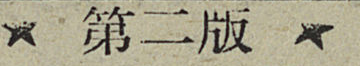★ 第二版 ★
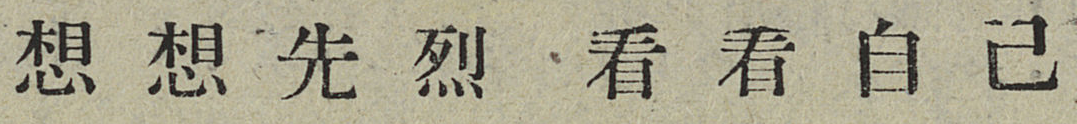想想先烈 看看自己
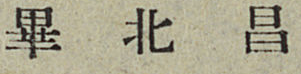畢 北 昌
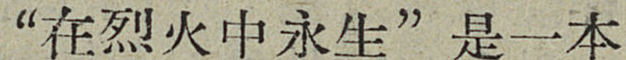“在烈火中永生”是一本
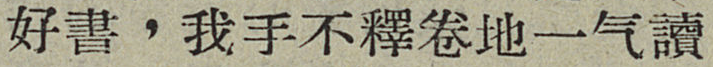好書，我手不釋卷地一气讀
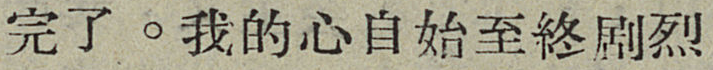完了。我的心自始至終剧烈
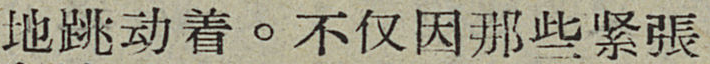地跳动着。不仅因那些紧張
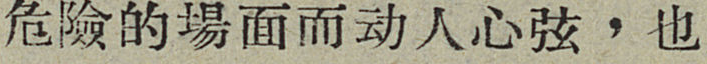危險的場面而动人心弦，也
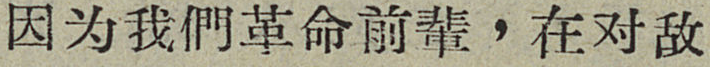因为我們革命前輩，在对敌
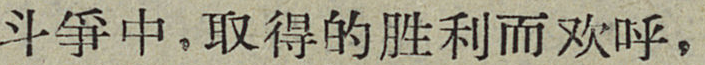斗爭中，取得的胜利而欢呼，
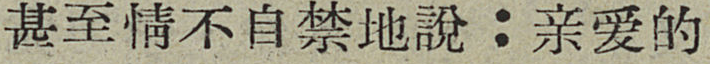甚至情不自禁地說：亲爱的
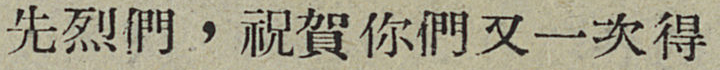先烈們，祝賀你們又一次得
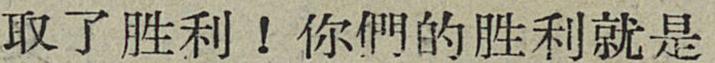取了胜利！你們的胜利就是
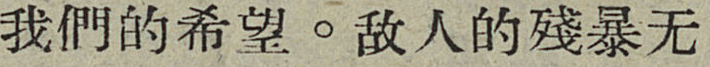我們的希望。敌人的殘暴无
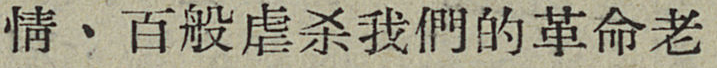情、百般虐杀我們的革命老
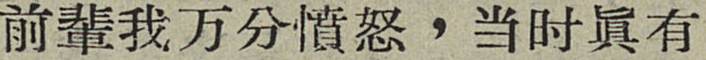前輩我万分憤怒，当时眞有
